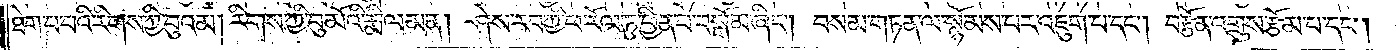ཐེག་པ་པའི་རིགས་ཀྱི་བུའམ། རིགས་ཀྱི་བུ་མོའི་རྨི་ལམ་ན། ཤེས་རབ་ཀྱི་ཕ་རོལ་ཏུ་ཕྱིན་པ་བསྒོམ་ཞིང༌། བསམ་གཏན་ལ་སྙོམས་པར་འཇུག་པ་དང༌། བརྩོན་འགྲུས་རྩོམ་པ་དང༌།
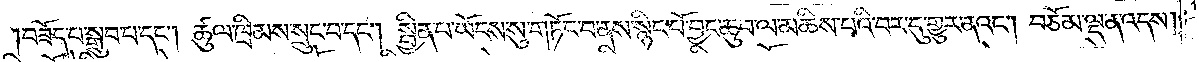བཟོད་པ་སྒྲུབ་པ་དང༌། ཚུལ་ཁྲིམས་སྲུང་བ་དང༌། སྦྱིན་པ་ཡོངས་སུ་གཏོང་བ་ནས་སྙིང་པོ་བྱང་ཆུབ་ལ་མཆིས་པའི་བར་དུ་གྱུར་ནའང༌། བཅོམ་ལྡན་འདས།
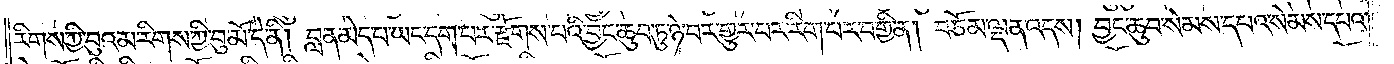རིགས་ཀྱི་བུའམ་རིགས་ཀྱི་བུ་མོ་དེ་ནི། བླ་ན་མེད་པ་ཡང་དག་པར་རྫོགས་པའི་བྱང་ཆུབ་ཏུ་ཉེ་བར་གྱུར་པར་རིག་པར་བགྱི་ན། བཅོམ་ལྡན་འདས། བྱང་ཆུབ་སེམས་དཔའ་སེམས་དཔའ་
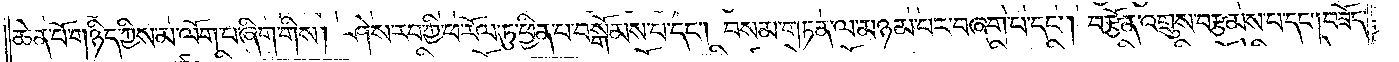ཆེན་པོ་གཉིད་ཀྱིས་མ་ལོག་པ་ཞིག་གིས། ཤེས་རབ་ཀྱི་ཕ་རོལ་ཏུ་ཕྱིན་པ་བསྒོམས་པ་དང༌། བསམ་གཏན་ལ་མཉམ་པར་བཞག་པ་དང༌། བརྩོན་འགྲུས་བརྩམས་པ་དང༌། བཟོད་
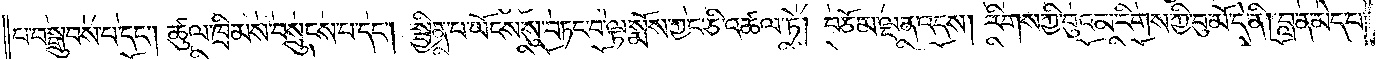པ་བསྒྲུབས་པ་དང༌། ཚུལ་ཁྲིམས་བསྲུངས་པ་དང༌། སྦྱིན་པ་ཡོངས་སུ་བཏང་བ་ལྟ་སྨོས་ཀྱང་ཅི་འཚལ་ཏེ། བཅོམ་ལྡན་འདས། རིགས་ཀྱི་བུའམ་རིགས་ཀྱི་བུ་མོ་དེ་ནི། བླ་ན་མེད་པ་
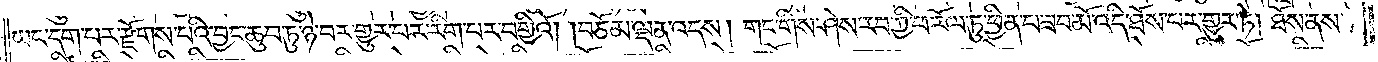ཡང་དག་པར་རྫོགས་པའི་བྱང་ཆུབ་ཏུ་ཉེ་བར་གྱུར་བར་རིག་པར་བགྱིའོ། །བཅོམ་ལྡན་འདས། གང་གིས་ཤེས་རབ་ཀྱི་ཕ་རོལ་ཏུ་ཕྱིན་པ་ཟབ་མོ་འདི་ཐོས་པར་གྱུར་ཏེ། ཐོས་ནས་
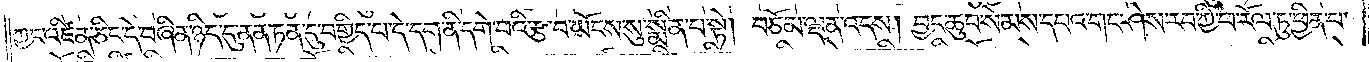ཀྱང་འཛིན་ཅིང་དེ་བཞིན་ཉིད་དུ་ནན་ཏན་དུ་བགྱིད་པ་དེ་དག་ནི་དགེ་བའི་རྩ་བ་ཡོངས་སུ་སྨིན་པ་སྟེ། བཅོམ་ལྡན་འདས། བྱང་ཆུབ་སེམས་དཔའ་གང་ཤེས་རབ་ཀྱི་ཕ་རོལ་ཏུ་ཕྱིན་པ་
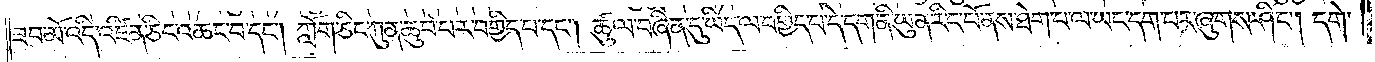ཟབ་མོ་འདི་འཛིན་ཅིང་འཆང་བ་དང༌། ཀློག་ཅིང་ཀུན་ཆུབ་པར་བགྱིད་པ་དང༌། ཚུལ་བཞིན་དུ་ཡིད་ལ་བགྱིད་པ་དེ་དག་ནི་ཡུན་རིང་པོ་ནས་ཐེག་པ་ལ་ཡང་དག་པར་ཞུགས་ཤིང༌། དགེ་
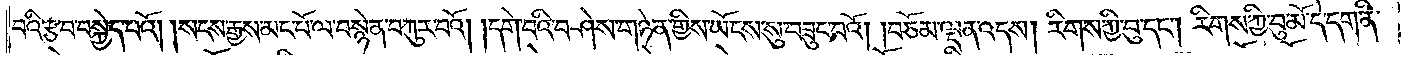བའི་རྩ་བ་བསྐྱེད་པའོ། །སངས་རྒྱས་མང་པོ་ལ་བསྙེན་བཀུར་བའོ། །དགེ་བའི་བཤེས་གཉེན་གྱིས་ཡོངས་སུ་བཟུང་བའོ། །བཅོམ་ལྡན་འདས། རིགས་ཀྱི་བུ་དང༌། རིགས་ཀྱི་བུ་མོ་དེ་དག་ནི་
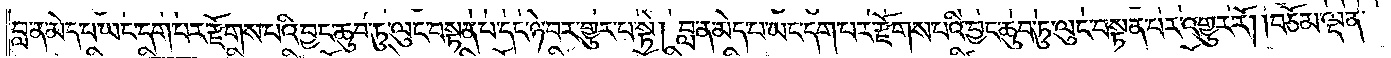བླ་ན་མེད་པ་ཡང་དག་པར་རྫོགས་པའི་བྱང་ཆུབ་ཏུ་ལུང་བསྟན་པ་དང་ཉེ་བར་གྱུར་པ་སྟེ། བླ་ན་མེད་པ་ཡང་དག་པར་རྫོགས་པའི་བྱང་ཆུབ་ཏུ་ལུང་བསྟན་པར་འགྱུར་རོ། །བཅོམ་ལྡན་
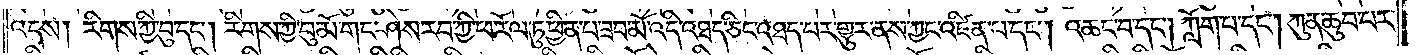འདས། རིགས་ཀྱི་བུ་དང༌། རིགས་ཀྱི་བུ་མོ་གང་ཤེས་རབ་ཀྱི་ཕ་རོལ་ཏུ་ཕྱིན་པ་ཟབ་མོ་འདི་འཐད་ཅིང་འཐད་པར་གྱུར་ནས་ཀྱང་འཛིན་པ་དང༌། འཆང་བ་དང༌། ཀློག་པ་དང༌། ཀུན་ཆུབ་པར་
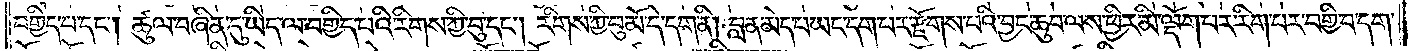བགྱིད་པ་དང༌། ཚུལ་བཞིན་དུ་ཡིད་ལ་བགྱིད་པའི་རིགས་ཀྱི་བུ་དང༌། རིགས་ཀྱི་བུ་མོ་དེ་དག་ནི། བླ་ན་མེད་པ་ཡང་དག་པར་རྫོགས་པའི་བྱང་ཆུབ་ལས་ཕྱིར་མི་ལྡོག་པར་རིག་པར་བགྱི་བ་དག་
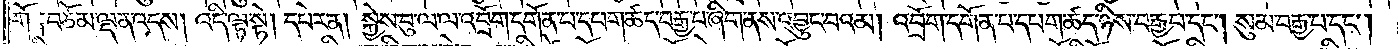གོ༑ བཅོམ་ལྡན་འདས། འདི་ལྟ་སྟེ། དཔེར་ན། སྐྱེས་བུ་ལ་ལ་འབྲོག་དགོན་པ་དཔག་ཚད་བརྒྱ་པ་ཞིག་ནས་འབྱུང་བའམ། འབྲོག་དགོན་པ་དཔག་ཚད་ཉིས་བརྒྱ་པ་དང༌། སུམ་བརྒྱ་པ་དང༌།
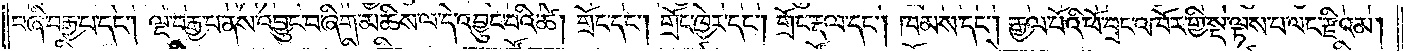བཞི་བརྒྱ་པ་དང༌། ལྔ་བརྒྱ་པ་ནས་འབྱུང་བ་ཞིག་མཆིས་ལ་དེ་འབྱུང་བའི་ཚེ། གྲོང་དང༌། གྲོང་ཁྱེར་དང༌། གྲོང་རྡལ་དང༌། ཁམས་དང༌། རྒྱལ་པོའི་ཕོ་བྲང་འཁོར་གྱི་སྔ་ལྟས་བ་ལང་རྫིའམ།
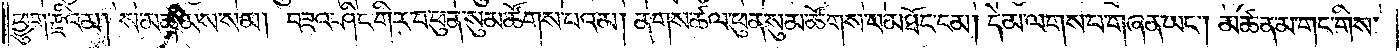ཕྱུགས་རྫིའམ། ས་མཚམས་སམ། བཟའ་ཤིང་གི་ར་བ་ཕུན་སུམ་ཚོགས་པའམ། ནགས་ཚལ་ཕུན་སུམ་ཚོགས་པ་མཐོང་ངམ། དེ་མ་ལགས་པ་གཞན་ཡང༌། མཚན་མ་གང་གིས་
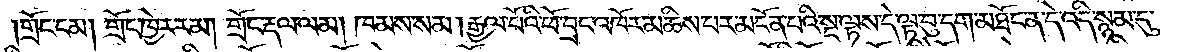གྲོང་ངམ། གྲོང་ཁྱེར་རམ། གྲོང་རྡལ་ལམ། ཁམས་སམ། རྒྱལ་པོའི་ཕོ་བྲང་འཁོར་མཆིས་པར་མངོན་པའི་སྔ་ལྟས་དེ་ལྟ་བུ་དག་མཐོང་ན་དེ་འདི་སྙམ་དུ་
